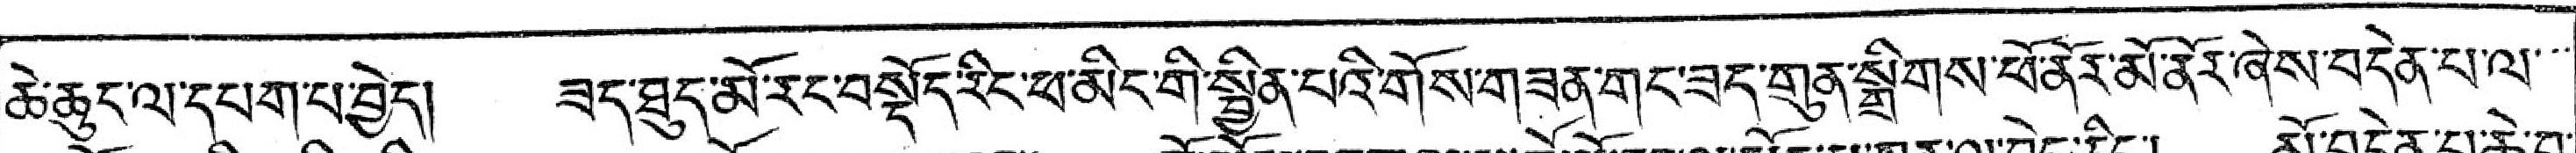ཆེ་ཆུང་ལ་དཔག་པ་བྱེད། ཟད་ཐུད་མོ་རང་བསྡོད་རིང་ཕ་མིང་གི་སྦྱིན་པའི་གོས་གཟན་ཟད་གུན་སྒྲིགས་ཕོ་ནོར་མོ་ནོར་ཞེས་བདེན་པ་ལ་་་
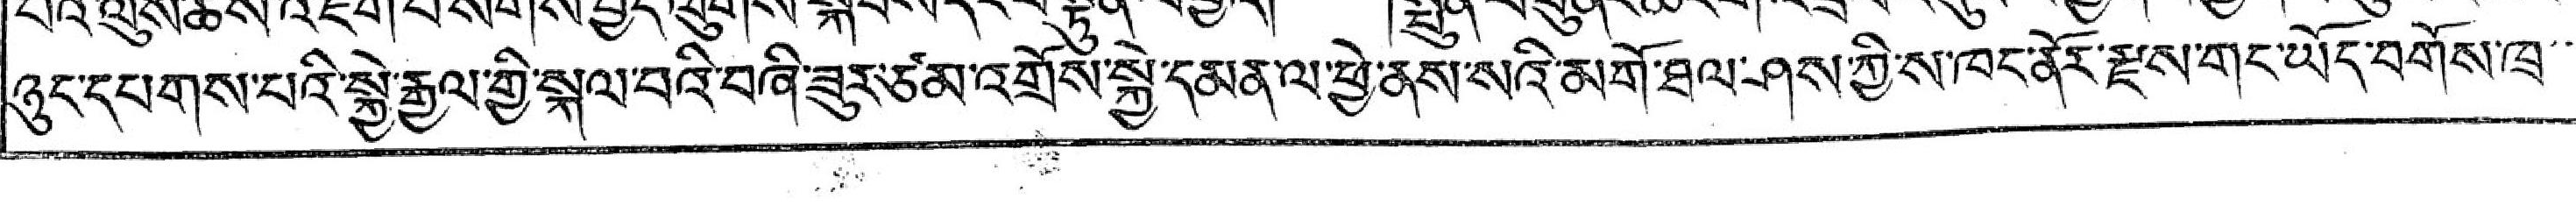ཉུང་དཔགས་པའི་སྐྱེ་རྒྱལ་གྱི་སྐལ་བའི་བཞི་ཟུར་ཙམ་འགྲོས་སྐྱེ་དམན་ལ་ཕྱེ་ནས་སའི་མགོ་ཐལ་ཤས་ཀྱི་ས་ཁང་རྫས་གང་ཡོད་བགོས་ཁྲ་་་
